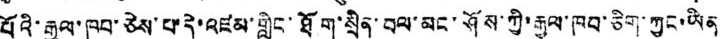པོའི་རྒྱལ་ཁབ་ཅེས་པ་དེ་འཛམ་གླིང་ཐོག་སྲིན་བལ་མང་ཤོས་ཀྱི་རྒྱལ་ཁབ་ཅིག་ཀྱང་ཡིན
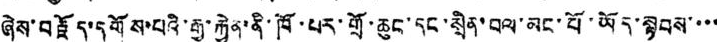ཞེས་བརྗོད་དགོས་པའི་རྒྱུ་རྐྱེན་ནི་ཁོ་པར་གྲོ་ཆུང་དང་སྲིན་བལ་མང་པོ་ཡོད་སྟབས་་་་
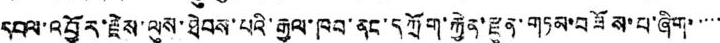དཔལ་འབྱོར་རྗེས་ལུས་ཐེབས་པའི་རྒྱལ་ཁབ་ནང་དཀྲོག་རྐྱེན་རྫུན་གཏམ་བཟོས་པ་ཞིག་་་་་
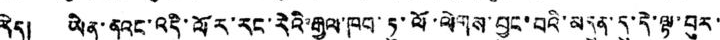རེད། ཡིན་ནའང་འདི་ལོར་རང་རེའི་རྒྱལ་ཁབ་ཏུ་ལོ་ལེགས་བྱུང་བའི་མདུན་དུ་དེ་ལྟ་བུར་
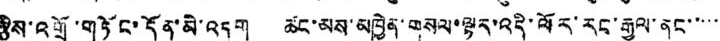རྩིས་འགྲོ་གཏོང་དོན་མི་འདུག ཚང་མས་མཁྱེན་གསལ་ལྟར་འདི་ལོར་རང་རྒྱལ་ནང་་་་་
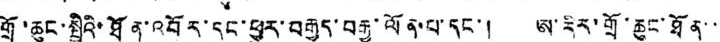གྲོ་ཆུང་སྤྱིའི་ཐོན་འབོར་དུང་ཕྱུར་བརྒྱད་བརྒྱ་ལོན་པ་དང་། ཨ་རིར་གྲོ་ཆུང་ཐོན་་
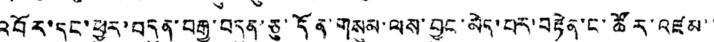འབོར་དུང་ཕྱུར་བདུན་བརྒྱ་བདུན་ཅུ་དོན་གསུམ་བྱུང་མེད་པར་བརྟེན་ང་ཚོར་འཛམ་་
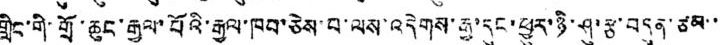གླིང་གི་གྲོ་ཆུང་རྒྱལ་པོའི་རྒྱལ་ཁབ་ཅེས་པ་ལས་འདེགས་རྒྱ་དུང་ཕྱུར་ཉི་ཤུ་རྩ་བདུན་ཙམ་་
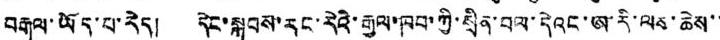བརྒལ་ཡོད་པ་རེད། དེང་སྐབས་རང་རེའི་རྒྱལ་ཁབ་ཀྱི་སྲིན་བལ་དེའང་ཨ་རི་ལས་ཆེས་་
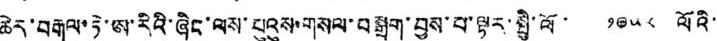ཆེར་བརྒལ་ཏེ་ཨ་རིའི་ཞིང་ལས་པུའུས་གསལ་བསྒྲག་བྱས་པ་ལྟར་སྤྱི་ལོ་ ༡༩༥༨ ལོའི་
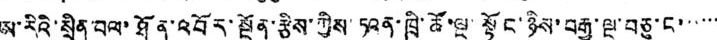ཨ་རིའི་སྲིན་བལ་ཐོན་འབོར་སྔོན་རྩིས་ཀྱིས་ཏའན་ཁྲི་ཚོ་ལྔ་སྟོང་ཉིས་བརྒྱ་ལྔ་བཅུ་ང་་་་་་
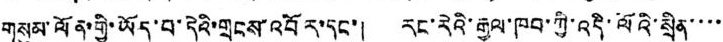གསུམ་ལོན་གྱི་ཡོད་པ་དེའི་གྲངས་འབོར་དང་། རང་རེའི་རྒྱལ་ཁབ་ཀྱི་འདི་ལོའི་སྲིན་་་་
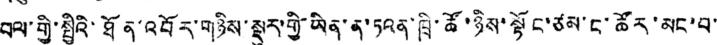བལ་གྱི་སྤྱིའི་ཐོན་འབོར་གཉིས་སྡུར་གྱི་ཡིན་ན་ཏའན་ཁྲི་ཚོ་ཉིས་སྟོང་ཙམ་ང་ཚོར་མང་བ་
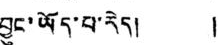བྱུང་ཡོད་པ་རེད། །
